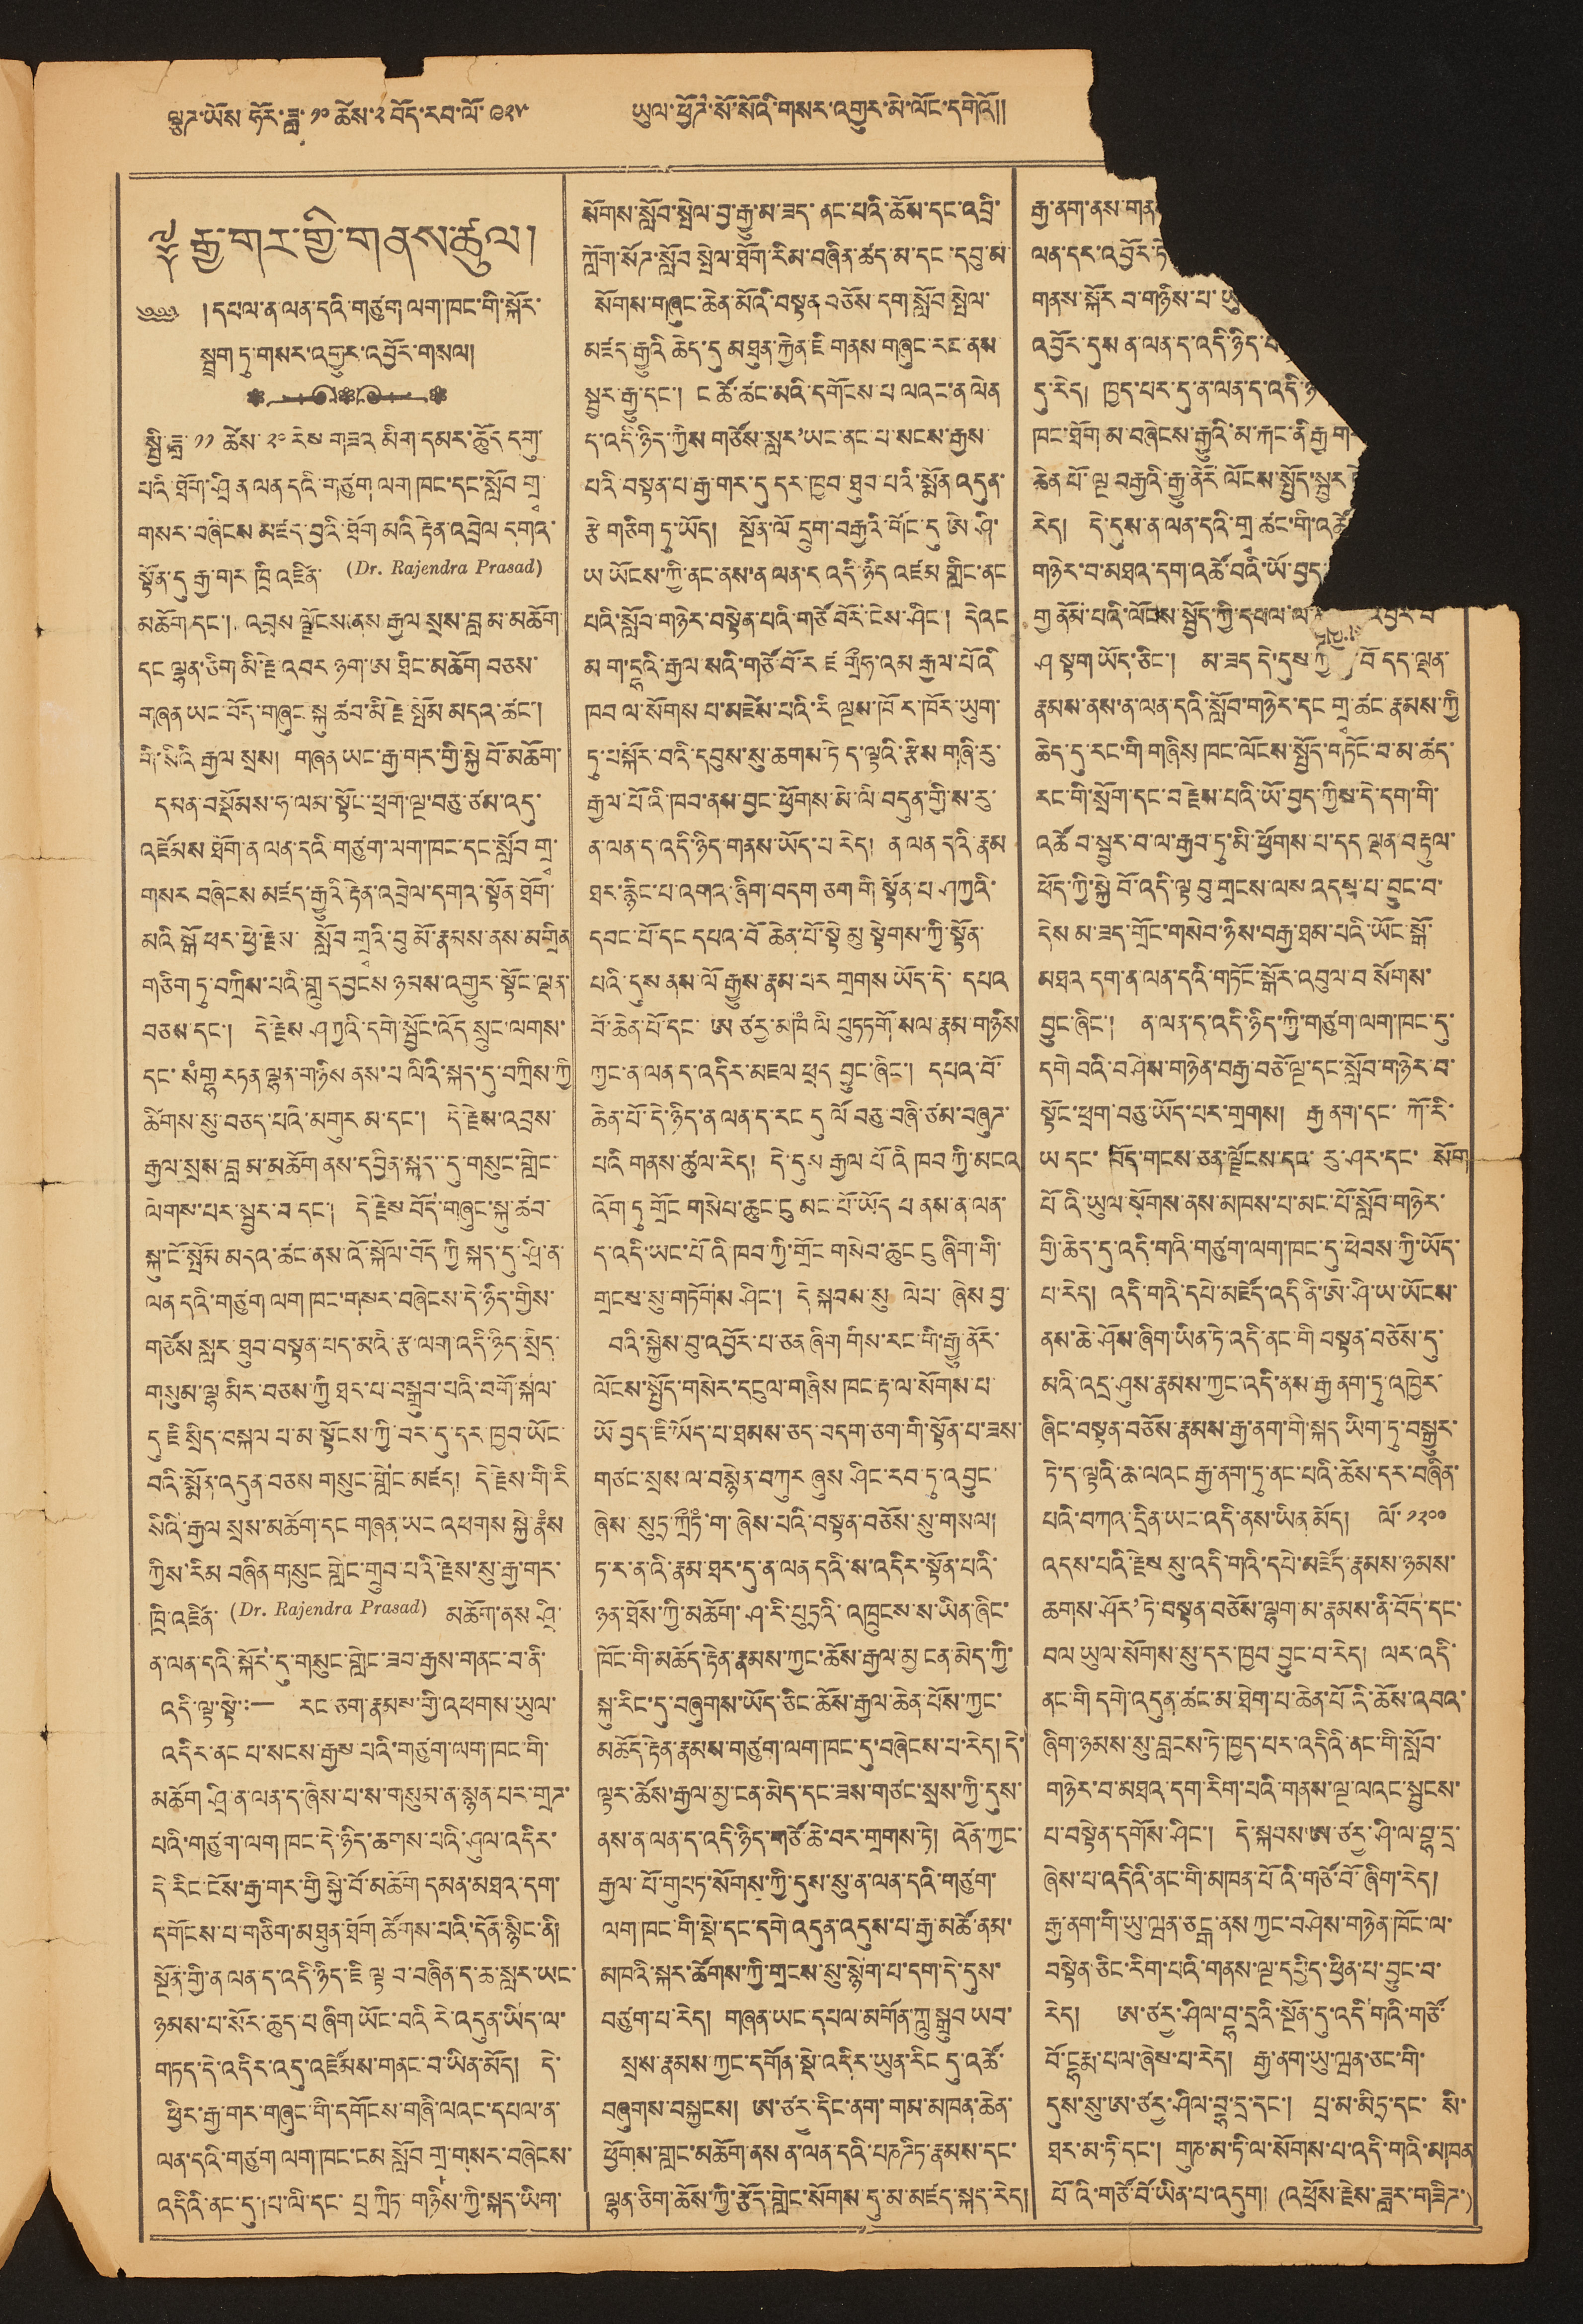ལྕཌ་ཡོས ཧོར་ཟླ་ ༡༠ ཚེས་༢བོད་རབ་ལོ་ ༩༢༥ ཡུལ་ཕྱོཌ་སོ་སོའི་གསར་འགྱུར་མེ་ལོང་དགེའོ།།
༈ རྒྱ་གར་གྱི་གནས་ཚུལ།
༄༅༅ །དཔལ་ན་ལན་དའི་གཙུག ལག་ཁང་གི་སྐོར་
སྦྲག ཏུ་གསར་འགྱུར་འབྱོར་གསལ།
སྤྱི་ཟླ་ ༡༡ ཚེས་ ༢༠ རེས་གཟའ མིག་དམར་ཚོུད དགུ་
པའི་ཐོག་ཤྲིན ལན དུའི་གཙུག ལག ཁང་དང་སློབ་གྲྭ་
གསར་བཞིངས མཛད་བྱའི་ཐོག མའི རྟེན་འབྲེལ དགའ་
སྟོན་དུ རྒྱ་གར་ཁྲི འཛིན་ (Dr. Rajendra Prasad)
མཆོག དང་། འབྲས ལྗོངས་ནས རྒྱལ སྲས་བླ མ་མཆོག
དང ལྷན་ཅིག མི་རྗེ་འབར ཉག་ཨ་ཐིང་མཆོག བཅས་
གཞན ཡང་བོད་གཞུང་སྐུ ཚབ་མི རྗེ་སྤོམ མདའ་ཚང་།
གི་སིའི རྒྱལ སྲས། གཞན ཡང་རྒྱ་གར་གྱི་སྐྱེ བོ་མཆོག་
དམན་བསྡོམས་ཧ་ལམ་སྟོང་་ཕྲག་ལྔ་བཅུ་ཙམ་འདུ་
འཛོམས ཐོག་ན ལན་དའི་གཙུག་ལག་ཁང་དང་སློབ་གྲྭ་
གསར བཞེངས མཛད་རྒྱུའི་རྟེན་འབྲེལ་དགའ་སྟོན་ཐོག་
མའི སྒོ ཕར་ཕྱེ་རྗེས་ སློབ གྲྭའི་བུ མོ་རྣམས་ནས་མགྲིན
གཅིག ཏུ་བཀྲིས་པའི་གླུ དབྱངས ཉམས་འགྱུར་སྟོང་ལྡན་
བཅས་དང་། དེ་རྗེས ཤཀྱའི་དགེ་སྦྱོང་འོད་སྲུང་ལགས་
དང་སཾགྷ རཏན ལྷན་གཉིས ནས་པ ལིའི་སྐད་དུ་བཀྲིས་ཀྱི
ཚིགས་སུ་བཅད་པའི་མགུར མ་དང་། དེ་རྗེས་འབྲས་
རྒྱལ་སྲས་བླ མ་མཆོག ནས་དབྱིན་སྐད་དུ་གསུང་གླེང་
ལེགས་པར་སྦྱར་བ དང་། དེ རྗེས བོད་གཞུང་སྐུ་ཚབ་
སྐུ་ངོ་སྦོམ་མདའ་ཚང་ནས་འོ་སྐོལ་བོད ཀྱི སྐད་དུ་ཤྲི་ན་
ལན དུའི་གཙུག ལག ཁང་གསར་བཞེངས་དེ་ཉིད་གྱིས་
གཙོས སླར་ཐུབ་བསྟན་པད་མའི་རྩ་ལག་འདི་ཉིད་སྲིད་
གསུམ་ལྷ མིར་བཅས་ཀྱི ཐད་པ་བསྒྲུབ་པའི་བགོ་སྐལ་
དུཇི སྲིད་བསྐུལ པ་མ་སྟོངས་ཀྱི་བར་དུ་དར་ཁྱབ་ཡོང་
བའི་སྨོན་འདུན་བཅས གསུང་གླེང་མཛད། དེ་རྗེས་གི་རི
སིའི་རྒྱལ སྲས་མཆོག་དང གཞན་ཡང འཕགས སྐྱེ་རྣཾས
ཀྱིས་རིམ བཞིན་གསུང གླེང་གྲུབ་པའི་རྗེས་སུ་རྒྱ་གར་
ཁྲི་འཛིན་ (Dr. Rajendra Prasad) མཆོག་ནས ཤྲི་
ན་ལན་དའི་སྐོར་དུ་གསུང་གླེང་ཟབ་རྒྱས་གནང་བ་ནི་
འདི་ལྟ་སྟེ་:— རང་ཅག་རྣམས་གྱི་འཕགས་ཡུལ་
འདིར་ནང པ་སངས་རྒྱས་པའི་གཙུག་ལག་ཁང་གི་
མཆོག ཤི་ན་ལན་དུ་ཞེས་པ་ས་གསུམ་ན་སྙན་པར་གྲཌ་
པའི་གཙུག ལག ཁང་དེ་ཉིད་ཆགས་པའི་ཤུལ་འདིར་
དེ་རིང་ངོས་རྒྱ་གར་གྱི སྐྱེ་བོ་མཆོག དམན་མཐའ་དག་
དགོངས་པ་གཅིག་མཐུན་ཐོག ཚོགས་པའི་དོན་སྙིང་ནི།
སྔོན་གྱི་ན ལན་དུ་འདི་ཉིད་ཇི ལྟ བ་བཞིན་ད་ཆ་སླར་ཡང་
ཉམས་པ་སོར་ཆུད་པ ཞིག ཡོང་བའི རེ་འདུན་ཡིད་ལ་
གཏད་དེ་འདིར་འདུ་འཛོམས་གནང་བ་ཡིན་མོད། དེ་
ཕྱིར་རྒྱ་གར་གཞུང་གི་དགོངས་གཞི་ལའང་དཔལ་ན་
ལན་དའི་གཙུག ལག་ཁང་ངམ་སློབ་གྲ་གསར་བཞེངས་
འདིའི་ནང་དུ་པ་ལི་དང་པྲ་ཀྲིད་གཉིས་ཀྱི་སྐད་ཡིག་
སོགས་སློབ་སྤེལ་བྱ་རྒྱུ་མ་ཟད་ནང་པའི་ཆོས་དང་འབྲི་
ཀློག་སོཌ་སློབ་སྤེལ་ཐོག་རིམ་བཞིན་ཚད་མ་དང་དབུ་མ་
སོགས་གཞུང་ཆེན་མོའི་བསྟན བཅོས་དག་སློབ སྤེལ་
མཛད་རྒྱུའི ཆེད་དུ མཐུན་རྐྱེན་ཇི གནས་གཞུང་རང་ནས
སྦྱར་རྒྱུ་དང་། ང ཚོ་ཚང་མའི་དགོངས་པ ལའང་ན ལེན
ད་འདི་ཉིད་ཀྱིས གཙོས་སླར་ཡང་ནང་པ་སངས་རྒྱས
པའི་བསྟན་པ་རྒྱ་གར་དུ དར་ཁྱབ་ཐུབ་པའི་སྨོན འདུན་
རྩེ གཅིག ཏུ་ཡོད། སྔོན་ལོ དྲུག་བརྒྱའི་གོང་དུ ཨེ་ཤི་
ཡ ཡོངས་ཀྱི་ནང་ནས་ན ལན་དུའདི་ཉིད འཛམ གླིང་ནང
པའི་སློབ་གཉེར་བསྟེན་པའི་གཙོ བོར་ངེས་ཤིང་། དེའང
མག་དྷའི་རྒྱལ་སའི་གཙོ་བོ་ར ཛ གྲིཧ་འམ རྒྱལ་པོའི
ཁབ ལ་སོགས པ་མཛེས་པའི་རི ལྔས་ཁོར་ཁོར་ཡུག་
ཏུ་བསྐོར་བའི་དབུས་སུ་ཆགས་ཏེ ད་ལྟའི་རྩིས་གཞི་རུ་
རྒྱལ་པོའི་ཁབ་ནས་བྱང་ཕྱོགས་མེ་ལི་བདུན་གྱི་ས་རུ་
ན་ལན་ད་འདི་ཉིད་གནས་ཡོད་པ རེད། ན ལན དའི་རྣམ
ཐར་རྙིང་པ་འགའ་ཞིག་བདག ཅག གི སྟོན་པ་ཤཀྱའི་
དབང་པོ་དང དཔའ་བོ ཆེན་པོ་སྟེ་མུ སྟེགས་ཀྱི་སྟོན་
པའི་དུས ནས་ལོ རྒྱུས་རྣམ་པར གྲགས ཡོད་དེ་དཔའ
བོ་ཆེན་པོ་དང་ ཨ ཙྱ་མཁཾ ལི པུཏཏགོ་སལ་རྣམ་གཉིས
ཀྱང་ན་ལན ད་འདིར་མཇལ ཕྲད བྱུང་ཞིང་། དཔའ་བོ་
ཆེན་པོ་དེ་ཉིད་ན ལན་ད་རང དུ ལོ བཅུ་བཞི་ཙམ་བཞུཌ་
པའི གནས་ཚུལ་རེད། དེ་དུས རྒྱལ པོའི ཁབ ཀྱི་མངའ
འོག་ཏུ གྲོང གསེཔ་ཆུང་ངུ མང་པོ་ཡོད པ ནས་ན་ལན་
ད་འདི་ཡང་པོའི་ཁབ་ཀྱི་གྲོང གསེབ་ཆུང ངུ ཞིག་གི་
གྲངས་སུ་གཏོགས ཤིང་། དེ སྐབས་སུ ལེབ་ཞེས བྱ་
བའི་སྐྱེས་བུ་འབྱོར་པ་ཙན ཞིག གིས་རང་གི་རྒྱུ་ནོར་
ལོངས་སྤྱོད་གསེར་དངུལ་གཞིས ཁང་རྟ་ལ་སོགས་པ་
ཡོ བྱད་ཇི་ཡོད་པ་ཐམས་ཅད་བདག་ཅག་གི་སྟོན་པ་ཟས་
གཙང་སྲས་ལ་བསྙེན་བཀུར ཞུས ཤིང་རབ་ཏུ་འབྱུང་
ཞེས་སུཏྲ་ཀྲིཏཾ་ག་ཞེས་པའི་བསྟན་བཅོས་སུ་གསལ།
ཏ་ར་ནའི་རྣམ་ཐར་དུ་ན་ལན དའི་ས་འདིར་སྟོན་པའི་
ཉན་ཐོས་ཀྱི་མཆོག་ཤ་རི་པུཏྲའི་འཁྲུངས་ས་ཡིན་ཞིང་
ཁོང་གི་མཆོད་རྟེན་རྣམས་ཀྱང་ཆོས་རྒྱལ་མྱ ངན་མེད་ཀྱི་
སྐུ་རིང་དུ་བཞུགས་ཡོད་ཅིང་ཆོས་རྒྱལ་ཆེན་པོས་ཀྱང་
མཆོད་རྟེན་རྣམས་གཙུག་ལག་ཁང་དུ་བཞེངས་པ་རེད། དེ་
ལྟར་ཚོས་རྒྱལ་མྱ་ངན་མེད་དང་ཟས་གཙང་སྲས་ཀྱི་དུས་
ནས་ན་ལན་དུ་འདི་ཉིད་གཙོ་ཆེ་བར་གྲགས་ཏེ། འོན་ཀྱང་
རྒྱལ་པོ་གུཔཏ་སོགས་ཀྱི་དུས་སུ་ན་ལན་དའི་གཙུག་
ལག་ཁང་གི་སྡེ་དང་དགེ་འདུན་འདུས་པ་རྒྱ་མཚོ་ནམ་
མཁའི་སྐར་ཚོགས་ཀྱི་གྲངས་སུ་སྙེག་པ་དག་དེ་དུས་
བཙུག་པ་རེད། གཞན་ཡང་དཔལ་མགོན་ཀླུ་སྒྲུབ ཡབ་
སྲས་རྣམས་ཀྱང་དགོན་སྡེ་འདིར་ཡུན་རིང དུ་འཚོ་
བཞུགས་བསྐྱངས། ཨ་ཙརྱ་དིང་ནག་གམ་མཁན་ཆེན་
ཕྱོགས་གླང་མཆོག་ནས ན་ལན་དའི་པཎཌིཏ་རྣམས་དང་
ལྷན་ཅིག་ཆོས་ཀྱི་རྩོད་གླེང་སོགས་དུ་མ་མཛད་སྐད་རེད།
རྒྱ་ནག་ནས་གན
ལན་དར་འབྱོར་ཏེ
གནས་སྐོར བ་གཉིས་པ་ཡུ
འབྱོར་དུས ན་ལན་དུ་འདི་ཉིད་པ
དུ་རེད། ཁྱད་པར་དུ་ན་ལན་དུ་འདི་ཉི
ཁང་ཐོག མ་བཞེངས་རྒྱུའི་མ་རྐང་ནི རྒྱ ག
ཆེན པོ་ལྔ བརྒྱའི་རྒྱུ་ནོར ལོངས་སྤྱོད་སྦྱར
རེད། དེ་དུས་ན་ལན་དའི་གྲྭ ཚང་གི་འཚོ
གཉེར་བ་མཐར་དག་འཚོ་བོའི་ཡོ་བྱད་
གྱ ནོམ་པའི་ལོངས་སྤྱོད་ཀྱི་དཔལ་ལ་འབྱར་བ།
ཤ སྟག ཡོད་ཅིང་། མ་ཟད དེ་དུས་ཀྱི བོ དད་ལྡན་
རྣམས་ནས་ན་ལན་དའི་སློབ་གཉེར་དང གྲྭ་ཚང་རྣམས་ཀྱི
ཆེད་དུ་རང་གི་གཞིས ཁང་ལོངས་སྤྱོད་གཏོང་བ་མ་ཚད་
རང་གི་སྲོག་དང་བརྗེས་པའི་ཡོ་བྱད་ཀྱིས་དེ་དག་གི་
འཚོབ་སྦྱར་བ་ལ་རྒྱབ་ཏུ་མི་ཕྱོགས་པ་དད ལྡན་བརྟུལ་
ཕོད་ཀྱི་སྐྱེ བོ་འདི་ལྟ་བུ་གྲངས་ལས་འདས་པ་བྱུང་བ་
དེས མ་ཟད་གྲོང་གསེབ་ཉིས་བརྒྱ་ཐམ་པའི་ཡོང་སྒོ་
མཐའ དག་ན་ལན་དའི་གཏོང་སྒོར་འབུལ་བ སོགས་
བྱུང་ཞིང་། ན་ལན་ད་འདི་ཉིད་ཀྱི་གཙུག་ལག་ཁང་དུ་
དགེ བའི་བཤེས་གཉེན་བརྒྱ་བཅོ་ལྔ་དང་སློབ་གཉེར་བ་
སྟོང་ཕྲག་བཅུ་ཡོད་པར་གྲགས། རྒྱ ནག་དང་ཀོ་རི་
ཡ དང་བོད་གངས་ཅན་ལྗོངས་དང་རུ་ཤར་དང་ སོག
པོའི་ཡུལ་སོགས་ནས་མཁས་པ་མང་པོ་སློབ་གཉེར་
གྱི་ཆེད་དུ་འདི་གའི་གཙུག་ལག་ཁང་དུ་ཕེབས་ཀྱི་ཡོད་
པ་རེད། འདི་གའི་དཔེ་མཛོད་འདི་ནི་ཨེ་ཤི་ཡ་ཡོངས་
ནས་ཆེ་ཤོས་ཞིག་ཡིན་ཏེ་འདི་ནང་གི བསྟན་བཅོས་དུ་
མའི་འདྲ་ཤུས་རྣམས་ཀྱང་འདི་ནས་རྒྱ ནག་ཏུ་འཁྱེར་
ཞིང་བསྟན་བཅོས་རྣམས་རྒྱ་ནག་གི་སྐད ཡིག་ཏུ་བསྒྱུར་
ཏེ་ད་ལྟའི་ཆ་ལའང རྒྱ་ནག་ཏུ་ནང་པའི་ཆོས་དར་བཞིན་
པའི་བཀའ་དྲིན་ཡང་འདི་ནས་ཡིན མོད། ལོ་ ༡༢༠༠
འདས་པའི་རྗེས སུ་འདི་གའི་དཔེ་མཛོད་རྣམས་ཉམས་
ཆགས་ཤོར'ཏེ་བསྟན་བཅོས་ལྷག་མ་རྣམས་ནི་བོད་དང་
བལ ཡུལ་སོགས་སུ་དར་ཁྱབ་བྱུང་བ་རེད། ལར་འདི་
ནང་གི དགེ་འདུན་ཚང་མ་ཐེག་པ་ཆེན་པོའི་ཆོས་འབའ་
ཞིག་ཉམས་སུ་བླངས་ཏེ་ཁྱད་པར་འདིའི་ནང་གི་སློབ་
གཉེར་བ་མཐའ་དག་རིག་པའི་གནས་ལྔ་ལའང་སྦྱངས་
པ་བསྟེན་དགོས་ཤིང་། དེ་སྐབས་ཨ་ཙྱ་ཤི་ལ་བྷ་དྲ་
ཞེས་པ་འདིའི་ནང་གི་མཁན་པོའི་གཙོ་བོ་ཞིག་རེད།
རྒྱ་ནག་གི་ཡུ་ཝན་ཅངྒ་ནས ཀྱང་བཤེས་གཉེན་ཁོང་ལ་
བསྟེན་ཅིང་རིག་པའི་གནས་ལྔ་དཔྱིད་ཕྱིན་པ་བྱུང་བ་
རེད། ཨ་ཙརྱ་ཤིལ་བྷ་དྲའི་སྔོན་དུ་འདི་གའི་གཙོ་
བོ་ངྷརྨ་པལ་ཞེས་པ་རེད། རྒྱ་ནག་ཡུ་ཝན་ཅང་གི་
དུས་སུ་ཨ་ཙྱ་ཤིལ་བྷ་དྲ་དང་། པྲ་མ་མིཏྲ་དང་ སི་
ཐར་མ་ཏི་དང་། གུཎ་མ་ཏི་ལ་སོགས་པ་འདི་གའི་མཁན
པོའི་གཙོ་བོ་ཡིན་པ་འདུག།།(འཕྲོས་རྗེས་ཟླར་གཟིཌ་)
